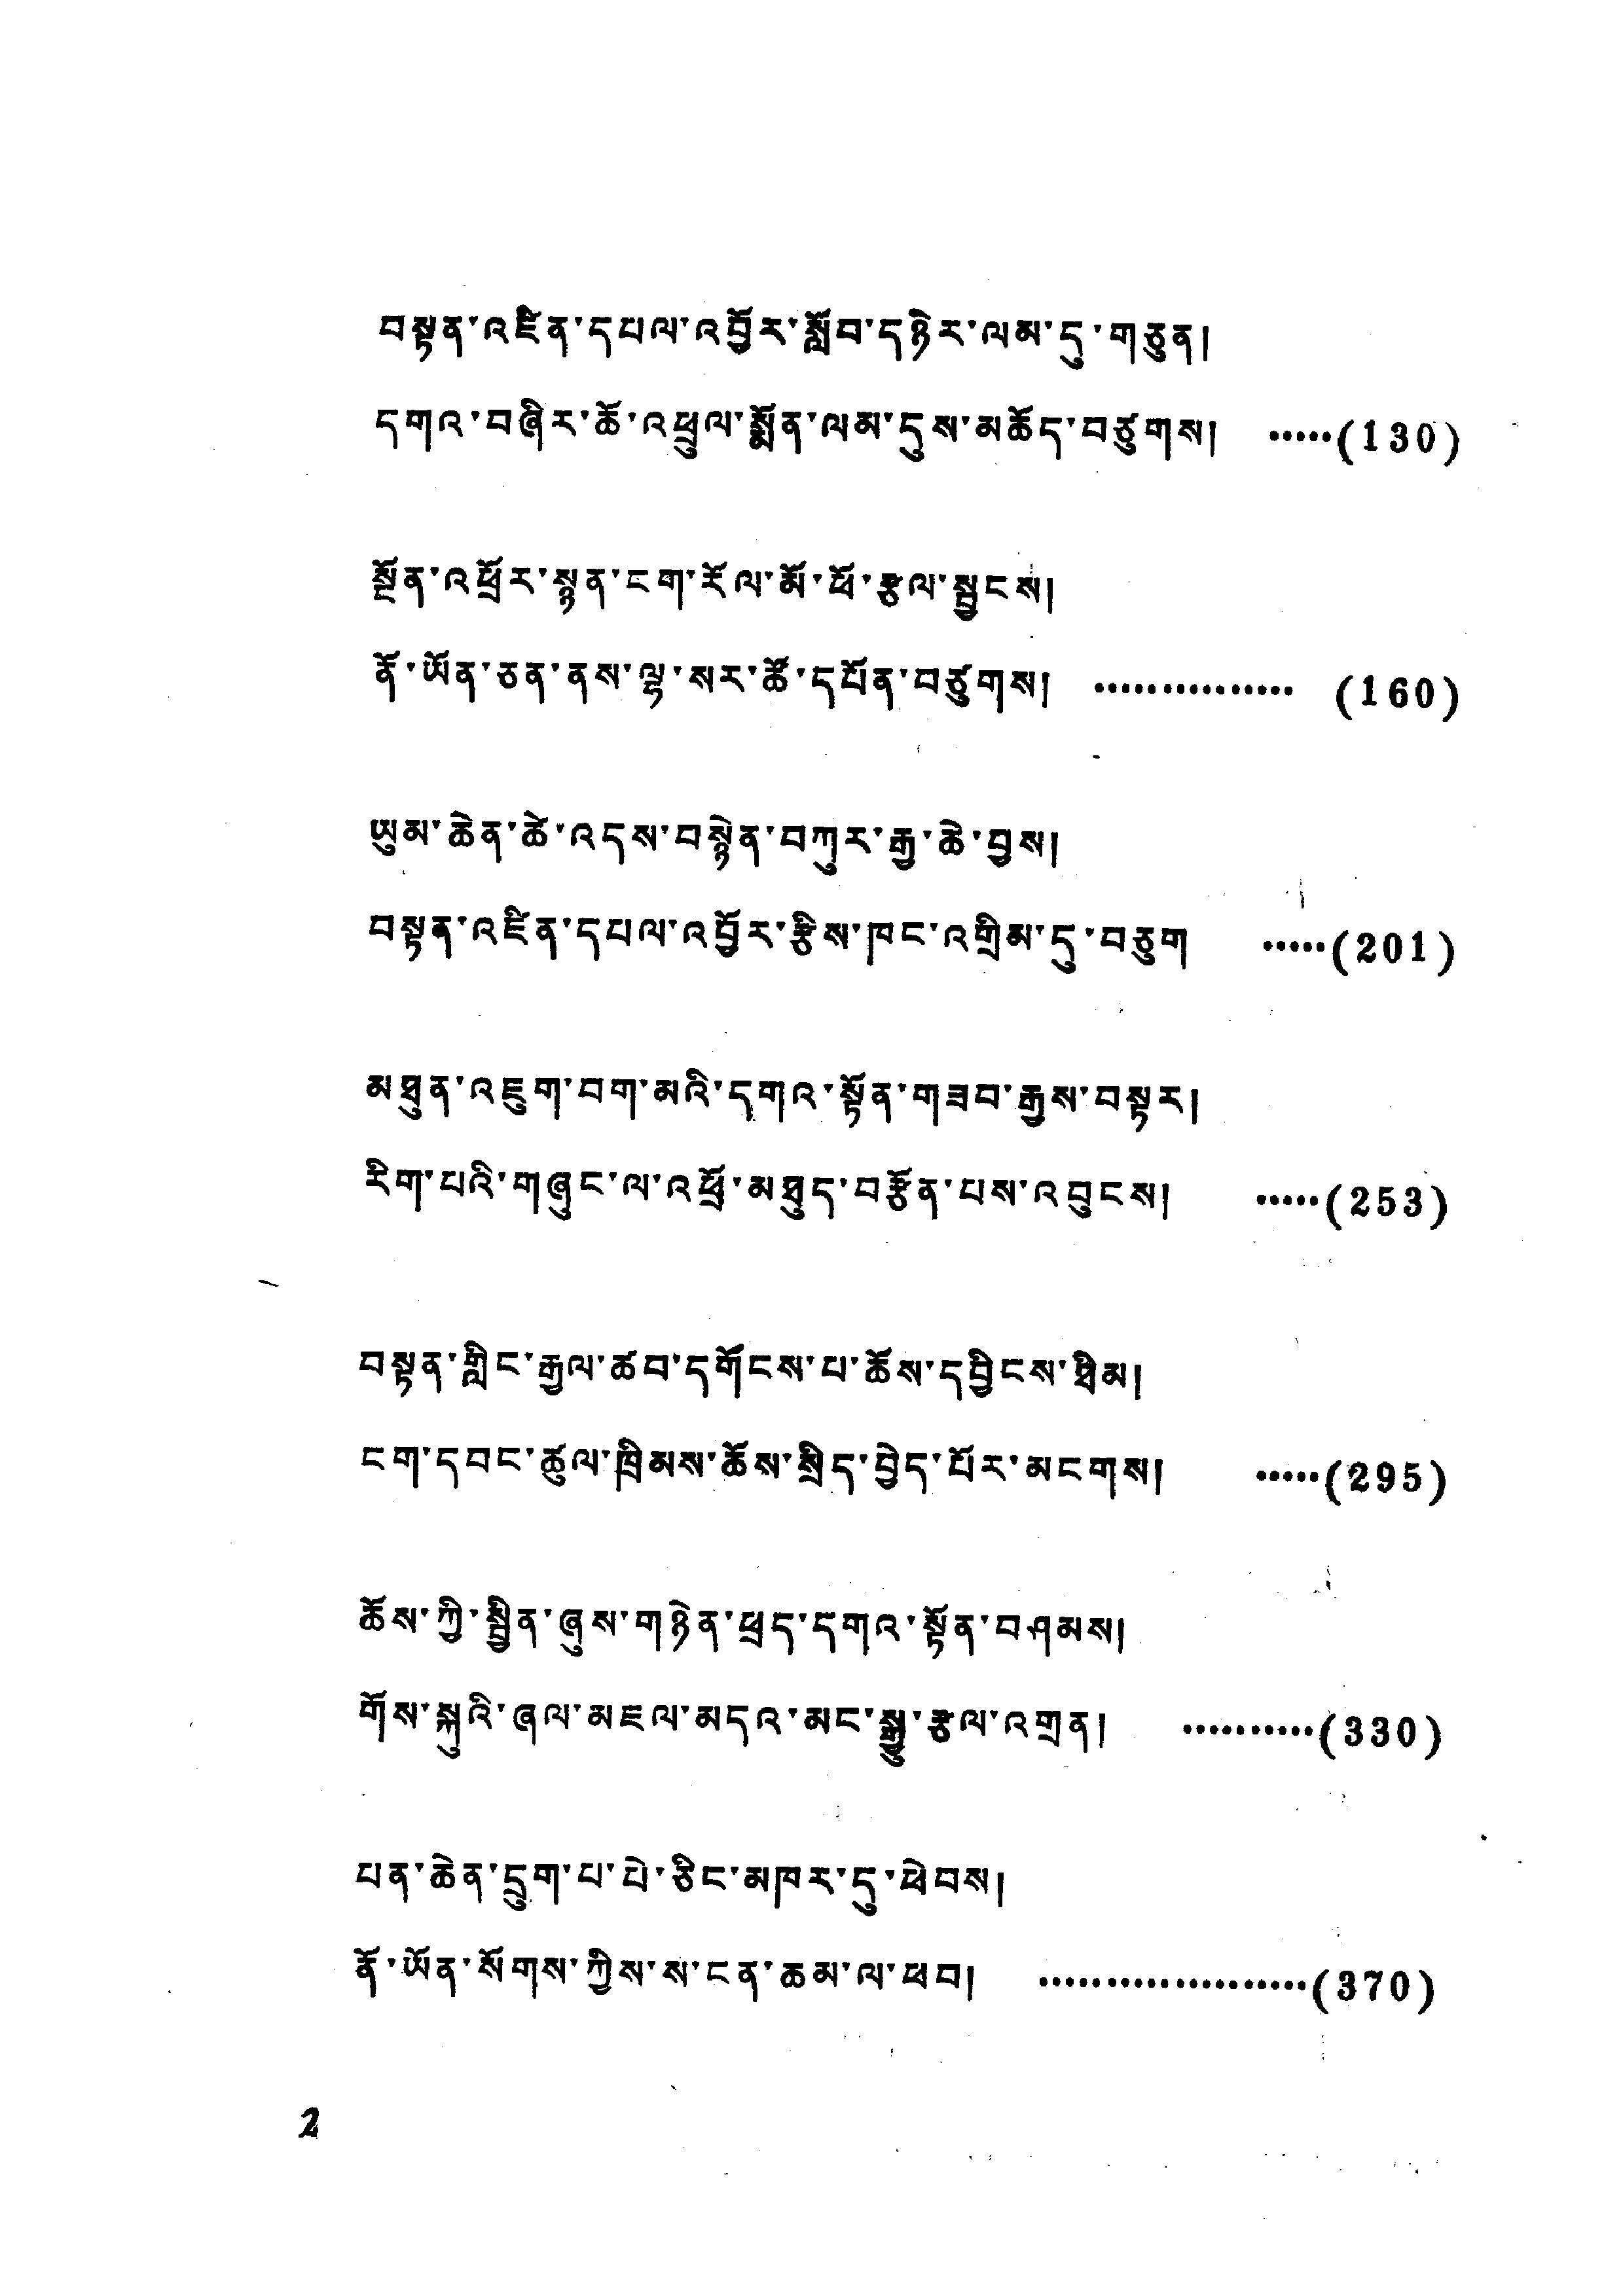བསྟན་འཛིན་དཔལ་འབྱོར་སློབ་དནྱེར་ལམ་དུ་གཅུན།
དགའ་བཞིར་ཆོ་འཕྲུལ་སྨོན་ལམ་དུས་མཆོད་བཙུགས། .....(130)
སྔོན་འཕྲོར་སྙན་ངག་རོལ་མོ་ཕོ་རྩལ་སྦྱངས།
ནོ་ཡོན་ཅན་ནས་ལྷ་སར་ཚོ་དཔོན་བཙུགས། ...............(160)
ཡུམ་ཆེན་ཚེ་འདས་བསྙེན་བཀུར་རྒྱ་ཆེ་བྱས།
བསྟན་འཛིན་དཔལ་འབྱོར་རྩིས་ཁང་འགྲིམ་དུ་བཅུག .....(201)
མཐུན་འཇུག་བག་མའི་དགའ་སྟོན་གཟབ་རྒྱས་བསྟར།
རིག་པའི་གཞུང་ལ་འཕྲོ་མཐུད་བརྩོན་པས་འབུངས། .....(253)
བསྟན་གླིང་རྒྱལ་ཚབ་དགོངས་པ་ཆོས་དབྱིངས་ཐིམ།
ངག་དབང་ཚུལ་ཁྲིམས་ཆོས་སྲིད་བྱེད་པོར་མངགས། .....(295)
ཆོས་ཀྱི་སྦྱིན་ཞུས་གཉེན་ཕྲད་དགའ་སྟོན་བཤམས།
གོས་སྐུའི་ཞལ་མཇལ་མདའ་མང་སྒྱུ་རྩལ་འགྲན། ..........(330)
པན་ཆེན་དྲུག་པ་པེ་ཅིང་མཁར་དུ་ཕེབས།
ནོ་ཡོན་སོགས་ཀྱིས་ས་ངན་ཆམ་ལ་ཕབ། ....................(370)
2
